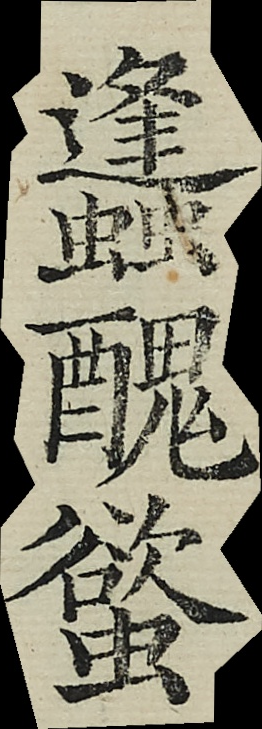蜂醜螸
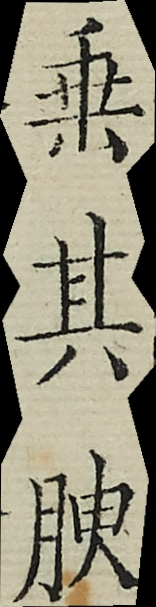垂其腴
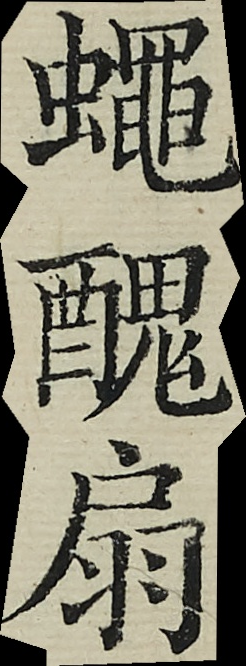蠅醜扇
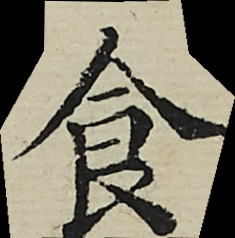食
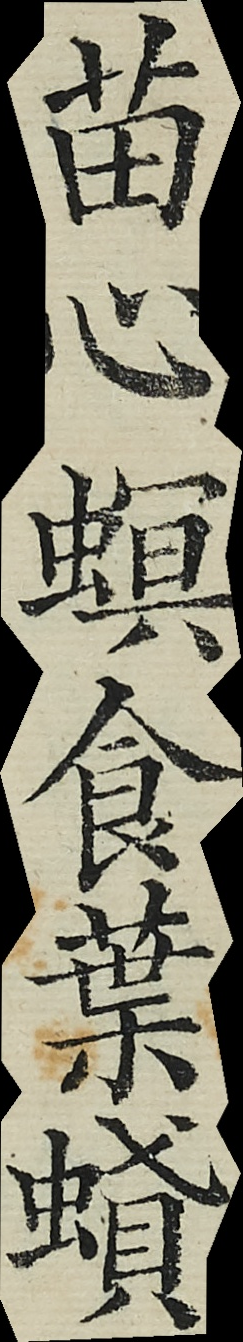苗心螟食葉蟘
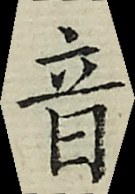音
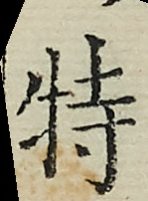特
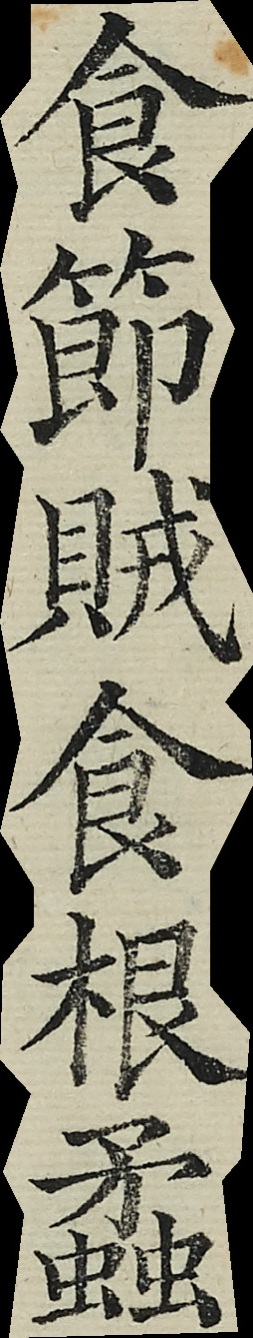食節賊食根蟊
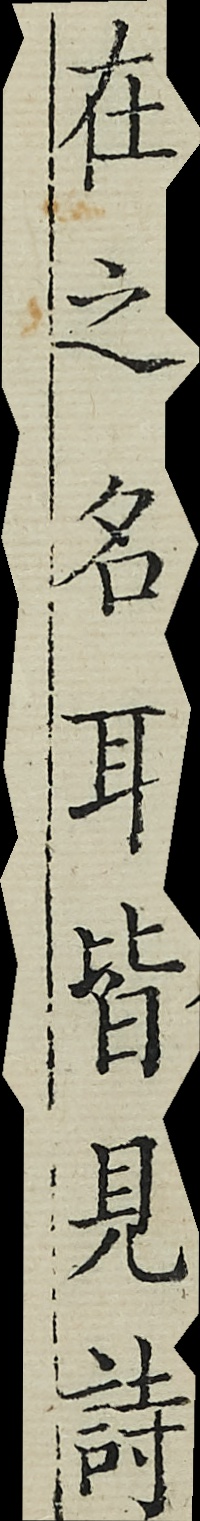在之名耳皆見詩
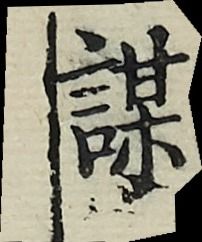謀
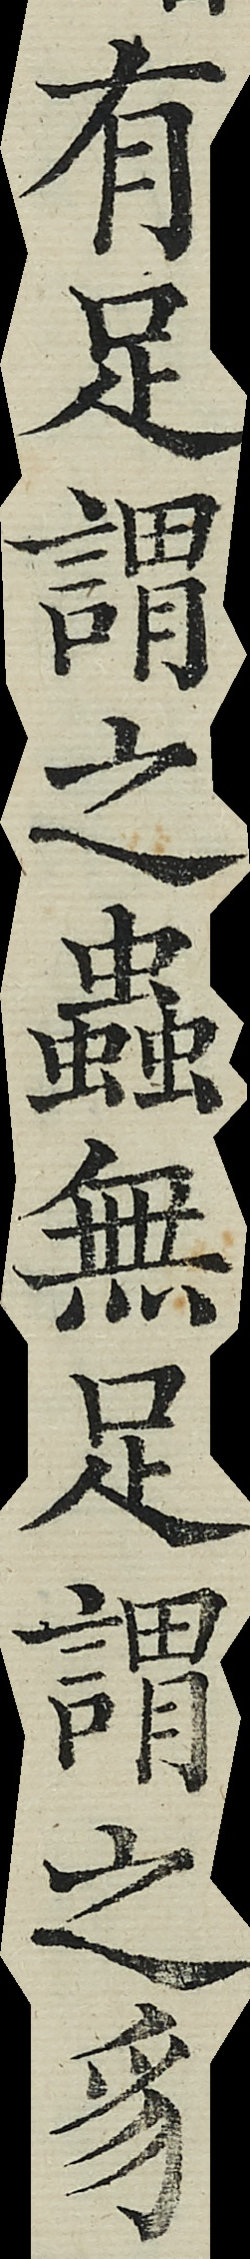有足謂之蟲無足謂之豸
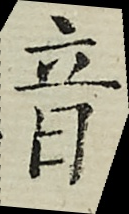音
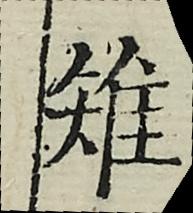雉
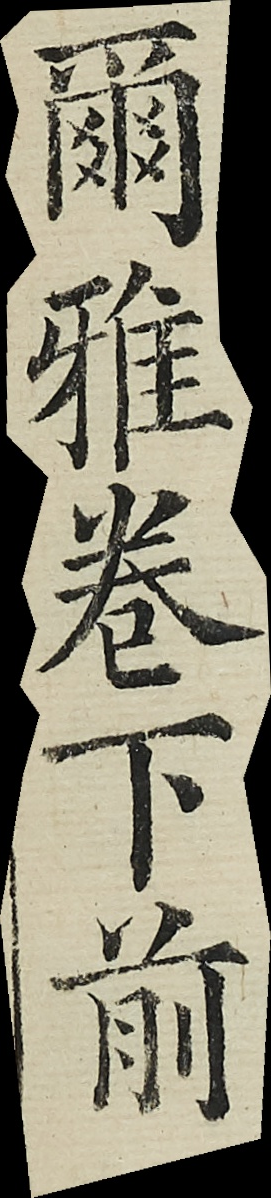爾雅卷下前
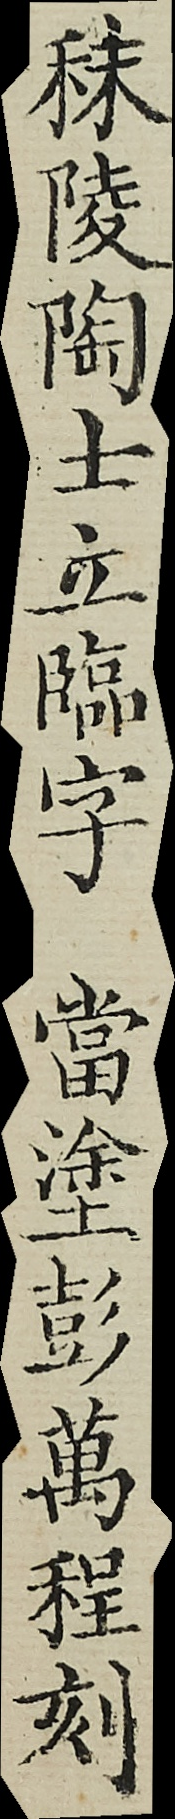枺陵陶士立臨字當塗彭萬程刻
